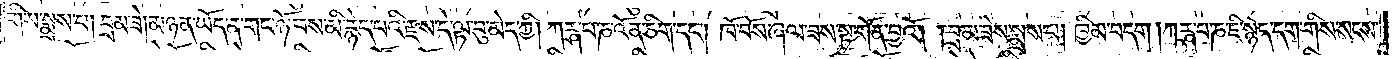གིས་སྨྲས་པ། བྲམ་ཟེ། མཉན་ཡོད་ན་གང་ཉོ་བས་མི་རྙེད་པའི་རྫས་དེ་ལྟ་བུ་མེད་ཀྱི། ཀཪྴ་པ་ཎ་འོན་ཅིག་དང༌། ཁོ་བོས་ཞལ་ཟས་སྟ་གོན་བྱའོ། །བྲམ་ཟེས་སྨྲས་པ། ཁྱིམ་བདག །ཀཪྴ་པ་ཎ་ཇི་སྙེད་དག་གིས་སངས་
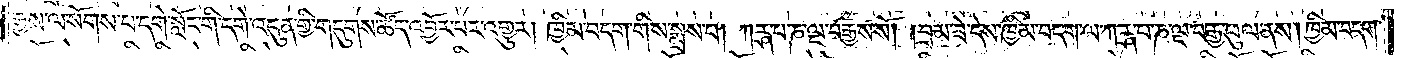རྒྱས་ལ་སོགས་པ་དགེ་སློང་གི་དགེ་འདུན་གྱི་གདུགས་ཚོད་འབྱོར་པར་འགྱུར། ཁྱིམ་བདག་གིས་སྨྲས་པ། ཀཪྴ་པ་ཎ་ལྔ་བརྒྱས་སོ། །བྲམ་ཟེ་དེས་ཁྱིམ་བདག་ལ་ཀཪྴ་པ་ཎ་ལྔ་བརྒྱ་ཕུལ་ནས། ཁྱིམ་བདག་
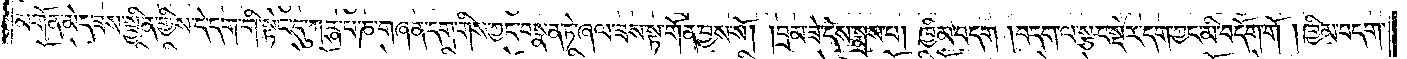མགོན་མེད་ཟས་སྦྱིན་གྱིས་དེ་དག་གི་སྟེང་དུ་ཀཪྴ་པ་ཎ་གཞན་དག་གིས་ཀྱང་བསྣན་ཏེ་ཞལ་ཟས་སྟ་གོན་བྱས་སོ། །བྲམ་ཟེ་དེས་སྨྲས་པ། ཁྱིམ་བདག །བདག་ལ་སྩང་སྡེར་དག་ཀྱང་མི་བདོག་གོ །ཁྱིམ་བདག་
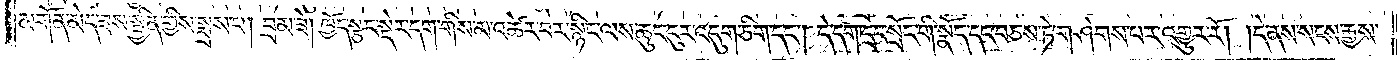མགོན་མེད་ཟས་སྦྱིན་གྱིས་སྨྲས་པ། བྲམ་ཟེ། ཁྱོད་སྩང་སྡེར་དག་གིས་མ་འཚེར་བར་སྙིང་ལས་ཆུང་ངུར་འདུག་ཅིག་དང༌། དེ་དག་དྲང་སྲོང་གི་སྣོད་དང་བཅས་ཏེ་གཤེགས་པར་འགྱུར་རོ། །དེ་ནས་སངས་རྒྱས་
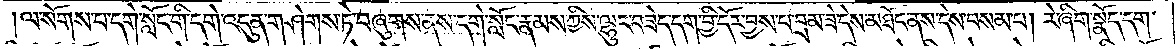ལ་སོགས་པ་དགེ་སློང་གི་དགེ་འདུན་གཤེགས་ཏེ་བཞུགས་ནས་དགེ་སློང་རྣམས་ཀྱིས་ལྷུང་བཟེད་དག་བྱི་དོར་བྱས་པ་བྲམ་ཟེ་དེས་མཐོང་ནས་དེས་བསམ་པ། རེ་ཞིག་སྣོད་དག་
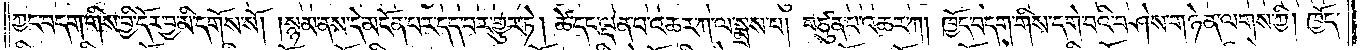ཀྱང་བདག་གིས་བྱི་དོར་བྱ་མི་དགོས་སོ། །སྙམ་ནས་དེ་མངོན་པར་དད་པར་གྱུར་ཏེ། ཚེ་དང་ལྡན་པ་འཆར་ཀ་ལ་སྨྲས་པ། བཙུན་པ་འཆར་ཀ། ཁྱོད་བདག་གིས་དགེ་བའི་བཤེས་གཉེན་ལགས་ཀྱི། ཁྱོད་
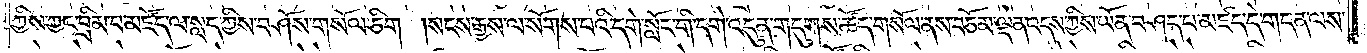ཀྱིས་ཀྱང་བྲིམ་པ་མཛོད་ལ་སླད་ཀྱིས་བཤོས་གསོལ་ཅིག །སངས་རྒྱས་ལ་སོགས་པའི་དགེ་སློང་གི་དགེ་འདུན་གདུགས་ཚོད་གསོལ་ནས་བཅོམ་ལྡན་འདས་ཀྱིས་ཡོན་བཤད་པ་མཛད་དེ་གདན་ལས་
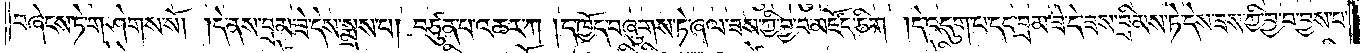བཞེངས་ཏེ་གཤེགས་སོ། །དེ་ནས་བྲམ་ཟེ་དེས་སྨྲས་པ། བཙུན་པ་འཆར་ཀ །ད་ཁྱོད་བཞུགས་ཏེ་ཞལ་ཟས་ཀྱི་བྱ་བ་མཛོད་ཅིག །དེ་འདུག་པ་དང་བྲམ་ཟེ་དེ་ཟས་བྲིམས་ཏེ་དེས་ཟས་ཀྱི་བྱ་བ་བྱས་པ་
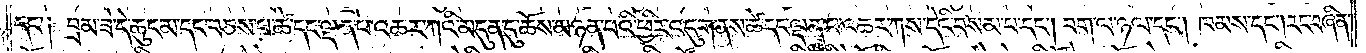དང་༑ བྲམ་ཟེ་དེ་ཆུང་མ་དང་བཅས་པ་ཚེ་དང་ལྡན་པ་འཆར་ཀའི་མདུན་དུ་ཆོས་མཉན་པའི་ཕྱིར་འདུག་ནས་ཚེ་དང་ལྡན་པ་འཆར་ཀས་དེའི་བསམ་པ་དང༌། བག་ལ་ཉལ་དང༌། ཁམས་དང༌། རང་བཞིན་
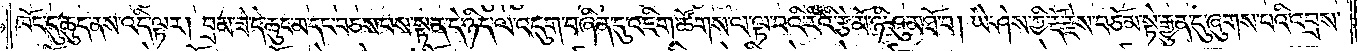ཁོང་དུ་ཆུད་ནས་འདི་ལྟར། བྲམ་ཟེ་དེ་ཆུང་མ་དང་བཅས་པས་སྟན་དེ་ཉིད་ལ་འདུག་བཞིན་དུ་འཇིག་ཚོགས་ལ་ལྟ་བའི་རིའི་རྩེ་མོ་ཉི་ཤུ་མཐོ་བ། ཡེ་ཤེས་ཀྱི་རྡོ་རྗེས་བཅོམ་སྟེ་རྒྱུན་དུ་ཞུགས་པའི་འབྲས་
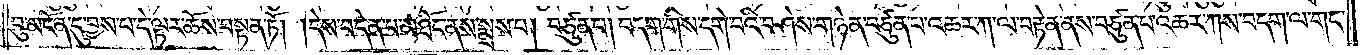བུ་མངོན་དུ་བྱས་པ་དེ་ལྟར་ཆོས་བསྟན་ཏོ། །དེས་བདེན་པ་མཐོང་ནས་སྨྲས་པ། བཙུན་པ། བདག་གིས་དགེ་བའི་བཤེས་གཉེན་བཙུན་པ་འཆར་ཀ་ལ་བརྟེན་ནས་བཙུན་པ་འཆར་ཀས་བདག་ལ་གང་
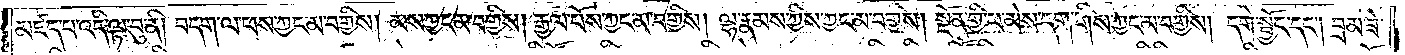མཛད་པ་འདི་ལྟ་བུ་ནི། བདག་ལ་ཕས་ཀྱང་མ་བགྱིས། མས་ཀྱང་མ་བགྱིས། རྒྱལ་པོས་ཀྱང་མ་བགྱིས། ལྷ་རྣམས་ཀྱིས་ཀྱང་མ་བགྱིས། སྔོན་གྱི་ཕ་མེས་དག་གིས་ཀྱང་མ་བགྱིས། དགེ་སྦྱོང་དང༌། བྲམ་ཟེ་
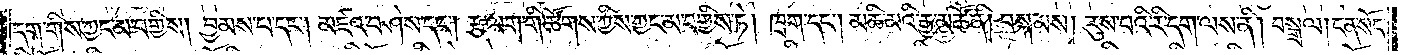དག་གིས་ཀྱང་མ་བགྱིས། བྱམས་པ་དང༌། མཛའ་བཤེས་དང༌། རྩ་ལག་གི་ཚོགས་ཀྱིས་ཀྱང་མ་བགྱིས་ཏེ། ཁྲག་དང༌། མཆི་མའི་རྒྱ་མཚོ་ནི། བསྐམས། རུས་པའི་རི་དག་ལས་ནི། བསྒྲལ། ངན་སོང་
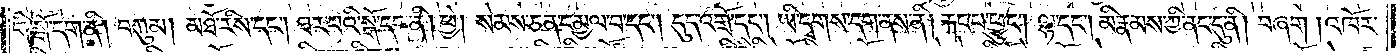གི་སྒོ་དག་ནི། བཀུམ། མཐོ་རིས་དང༌། ཐར་པའི་སྒོ་དག་ནི། ཕྱེ། སེམས་ཅན་དམྱལ་བ་དང༌། དུད་འགྲོ་དང༌། ཡི་དྭགས་དག་ནས་ནི། རྐང་པ་ཕྱུང༌། ལྷ་དང༌། མི་རྣམས་ཀྱི་ནང་དུ་ནི། བཞག །འཁོར་
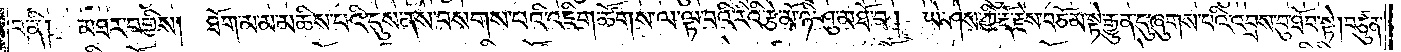བ་ནི། མཐར་བགྱིས། ཐོག་མ་མ་མཆིས་པའི་དུས་ནས་བསགས་པའི་འཇིག་ཚོགས་ལ་ལྟ་བའི་རིའི་རྩེ་མོ་ཉི་ཤུ་མཐོ་བ། ཡེ་ཤེས་ཀྱི་རྡོ་རྗེས་བཅོམ་སྟེ་རྒྱུན་དུ་ཞུགས་པའི་འབྲས་བུ་ཐོབ་སྟེ། བཙུན་
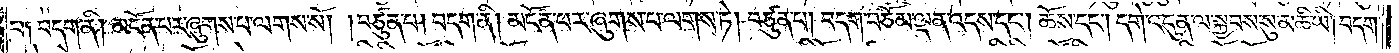པ༑ བདག་ནི། མངོན་པར་ཞུགས་པ་ལགས་སོ། །བཙུན་པ། བདག་ནི། མངོན་པར་ཞུགས་པ་ལགས་ཏེ། བཙུན་པ། བདག་བཅོམ་ལྡན་འདས་དང༌། ཆོས་དང༌། དགེ་འདུན་ལ་སྐྱབས་སུ་མཆི་ཡི། བདག་
